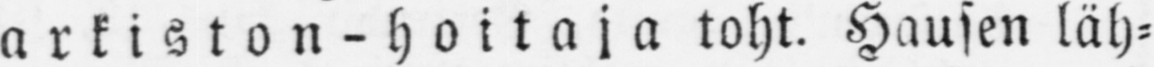arkiston-h oitaja toht. Hausen läh-
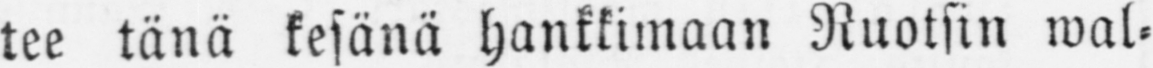tee tänä kesänä hankkimaan Ruotsin wal-
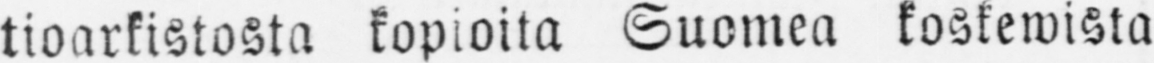tioarkistosta kopioita Suomea koskewista
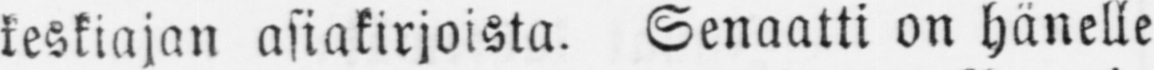keskiajan asiakirjoista. Senaatti on hänelle
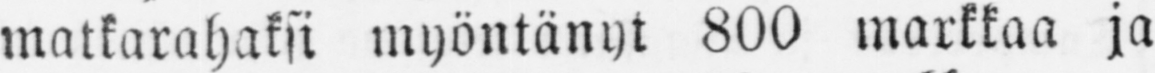matkarahaksi myöntänyt 800 markkaa ja
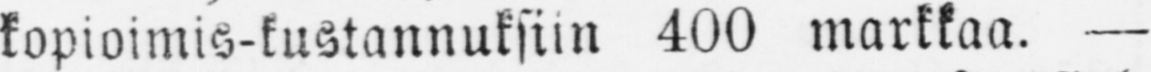kopioimis-kustannuksiin 400 markkaa. —
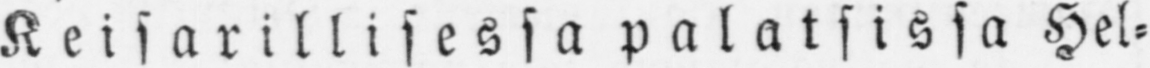Keisarillisessa palatsissa Hel-
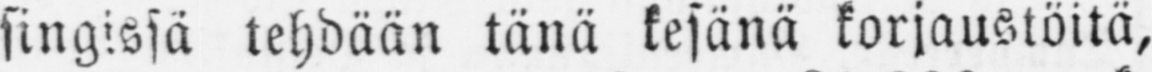singissä tehdään tänä kesänä korjaustöitä,
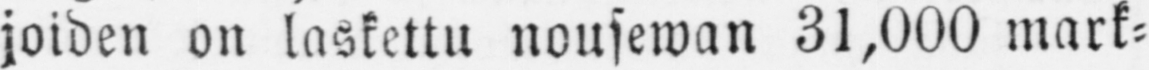joiden on laskettu nousewan 31,000 mark-
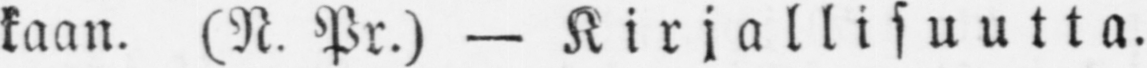kaan. (N. Pr.) — Kirjallisuutta.
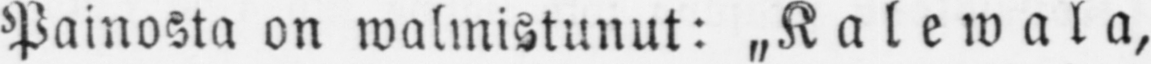Painosta on walmistunut: „Kale wala,
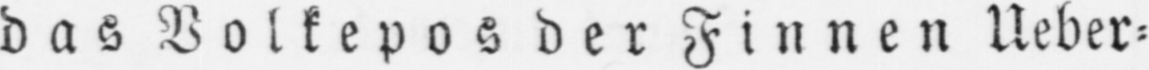das Volkepos der Finnen Ueber-
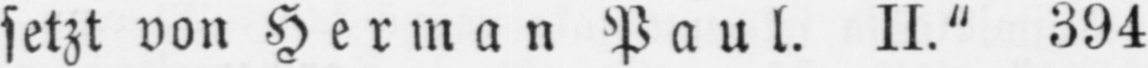setzt von Herman Paul. II." 394
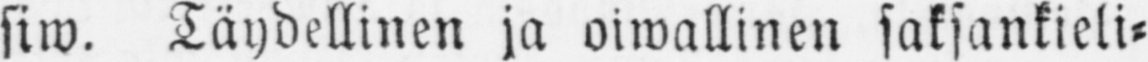siw. Täydellinen ja oiwallinen saksankieli-
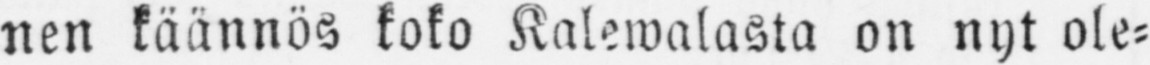nen käännös koko Kalewalasta on nyt ole-
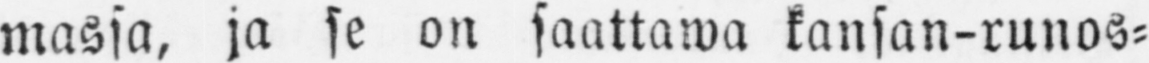massa, ja se on saattawa kansan-runos-
